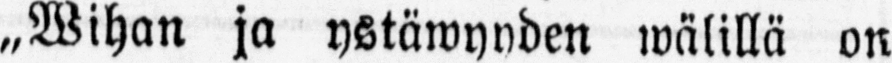„Wihan ja ystäwyyden wälillä on
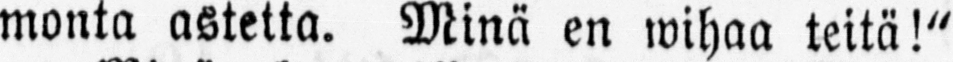monta astetta. Minä en wihaa teitä!"
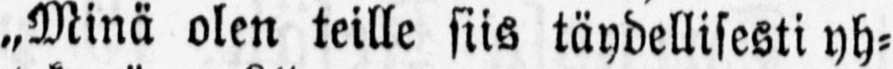„Minä olen teille siis täydellisesti yh-
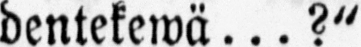dentekewä ... ?"
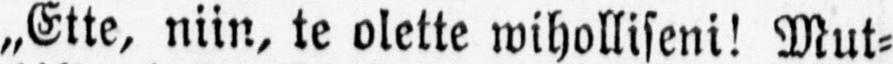„Ette, niin, te olette wiholliseni! Mut-
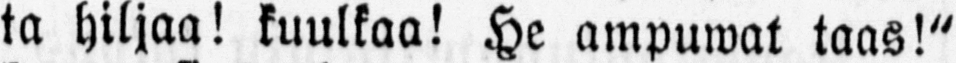ta hiljaa! kuulkaa! He ampuwat taas!"
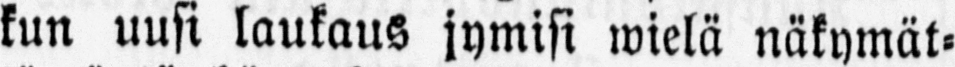kun uusi laukaus jymisi wielä näkymät-
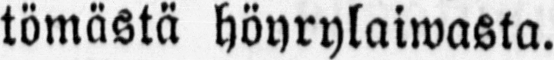tömästä höyrylaiwasta.
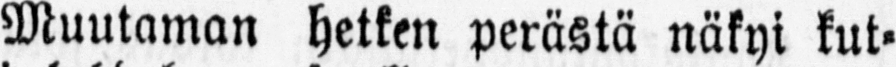Muutaman hetken perästä näkyi kut-
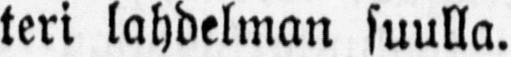teri lahdelman suulla.
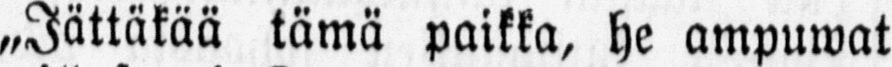„Jättäkää tämä paikka, he ampuwat
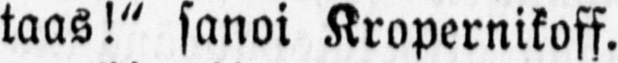taas!" sanoi Kropernikoff.
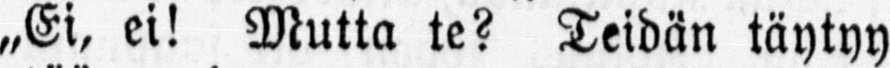„Ei, ei! Mutta te? Teidän täytyy
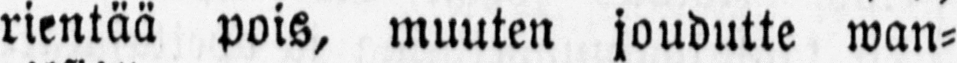rientää pois, muuten joudutte wan-
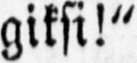giksi!"
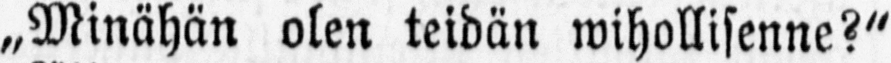„Minähän olen teidän wihollisenne?"
